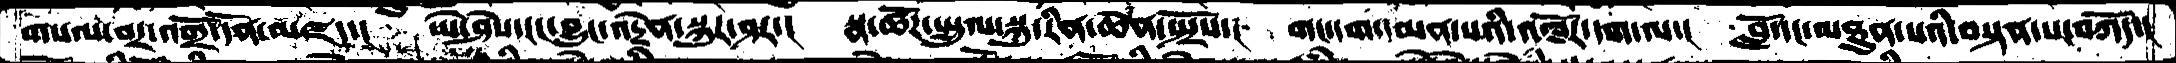གསལ་བར་འགྲོ་དོན་མཛད་།  ཡེ་ཤེས་རང་བྱུང་འདྲེན་སྐུར་ཤར་།  སྣ་ཚོཌ་སྤྲུལ་སྐུ་རིན་ཆེན་སྤྲོས་། གང་དག་དམན་པའི་འཁོར་དག་ལ་།  བློ་དང་མཐུན་པའི་བསྟན་པ་བཀོད་།
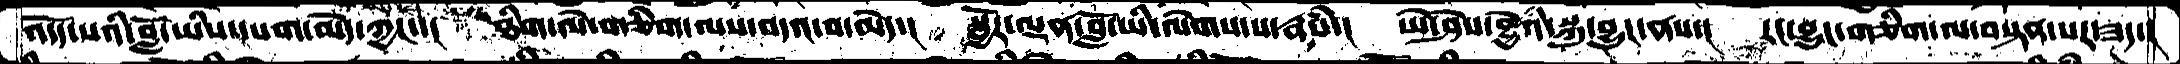འདོད་པའི་བློ་ཡིས་དཔག་མེད་ཀྱང་།   ཐིག་ལེ་གཅིག་ལས་བདའ་བ་མེད་།  སྦྱོར་ལྡན་བློ་ཡི་ལེགས་པ་རྣཾས་།   ཡེ་ཤེས་ཐྱེའི་སྐུ་བྱུང་ནས་།  རང་བྱུང་གཅིག་ལ་བསྟན་པར་ཟད་།
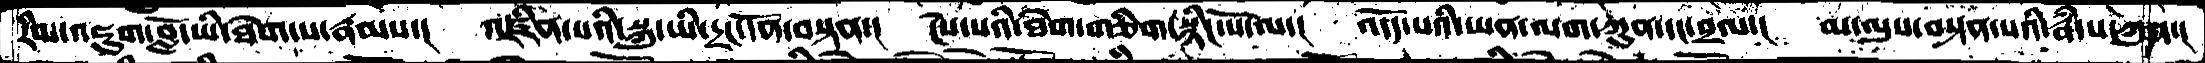རིམ་འཇུག་བློ་ཡི་ཐེག་པ་རྣམས་།   འཛིན་པའི་སྐུ་ཡི་དྲང་དོན་བསྟན་།  ངེས་པའི་ཐེག་གཅིག་སྙིང་པོ་ལ་།  འདོད་པའི་ཡན་ལག་ཀུན་དང་བྲལ་།  མ་ལུས་བསྟན་པའི་རྣཾ་པ་ཀུན་།
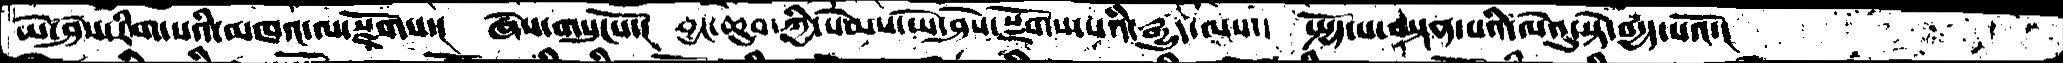ཡེ་ཤེས་རིག་པའི་མཁའ་ལ་སྫོགས་།  ཞེས་གསུངསོ་།  བྱང་ཆུབ་ཀྱི་སེམས་ཡེ་ཤེས་སྫོགས་པའི་རྒྱུད་ལས་།  སྤྱོད་པ་བསྟན་པའི་ལེའུ་སྟེ་བདྱད་པའོ་།
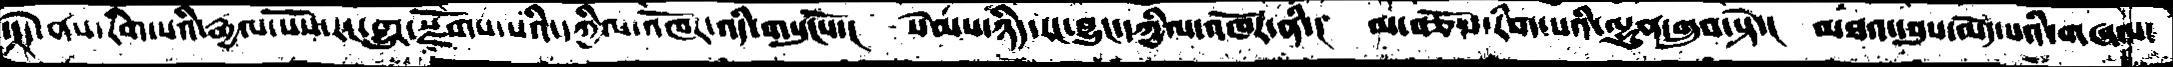་།དེ་ནས་རིག་པའི་རྒྱལ་པོས་རང་བྱུང་སྫོགས་པའི་དཀྱིལ་འཁོར་འདི་གསུངསོ་།   སེམས་ཉིད་རང་བྱུང་དཀྱིལ་འཁོར་ནི་།  མ་བཅོས་རིག་པའི་ལྷུན་གྲུབ་སྟེ་།   མཐའ་དབུས་མེད་པའི་གཞལ་
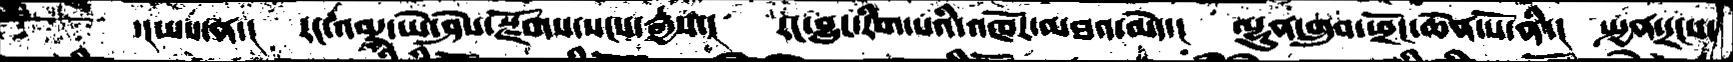་།ཡས་ན་།   རང་འབར་ཡེ་ཤེས་སྫོགས་སངས་རྒྱས་།  རང་བྱུང་རིག་པའི་འཁོར་མཐའ་མེད་།  ལྷུན་གྲུབ་ཕྲོང་ཆེན་པོ་ནི་།  སྤྱན་དྲངས་
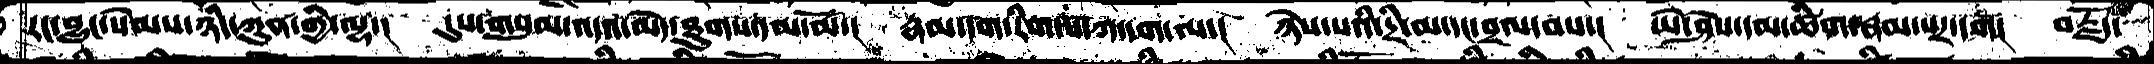རང་བྱུང་སེམས་ཉིད་ཀུན་གྱི་ལྷ་།  དུས་གསུམ་འདའ་མེད་ཐུགས་དམ་མོ་།   རྣམ་དག་རིག་པ་ཀ་དག་ལ་།  ཞེས་པའི་དྲི་མ་དང་བྲལ་བས་།  ཡེ་ཤེས་དམ་ཚིག་རྣམ་པར་དག།  བརྗོད་
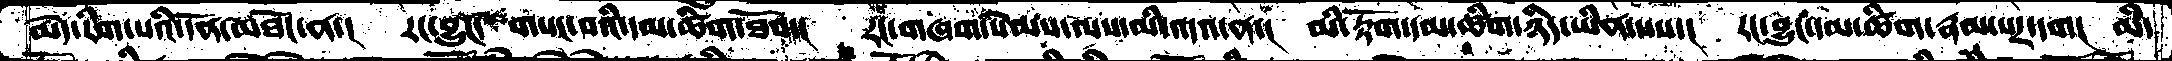མེད་རིག་པའི་དོན་མཐོང་ན་།   རང་བྱུང་གསང་བའི་དམ་ཚིག་ཐོབ་།  རང་གཞག་སེམས་ལས་མི་འདའ་ན་།  མི་རྟོག་དམ་ཚིག་ཉིད་ཡིན་པས་།  རང་བྱུང་དམ་ཚིག་རྣམ་པར་དག།  མི་
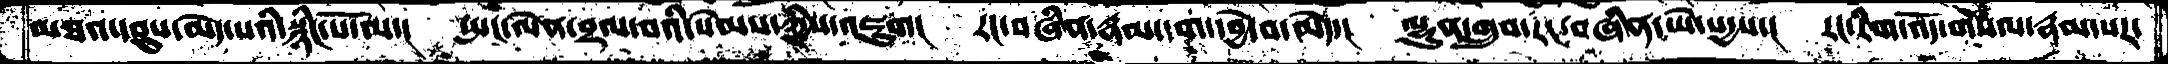མཐའ་དབུས་མེད་པའི་སྙིང་པོ་ལ་།  སྤང་ལེན་བྲལ་བའི་སེམས་ཀྱིས་འཇུག།  རང་བཞིན་རྣམ་དག་དབྱེ་བ་མེད་།  ལྷུན་གྲུབ་རང་བཞིན་ཡེ་སདྱས་།  རང་རིག་འོད་གསལ་རྣམ་པར་
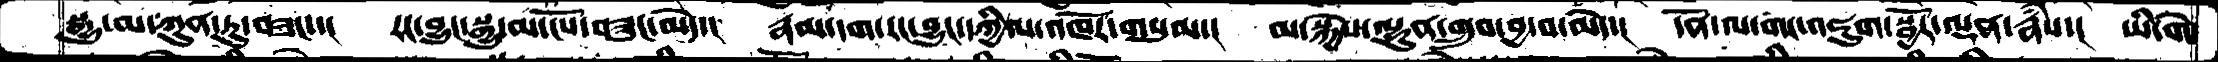སྒྱུ་མ་ཀུན་ཏུ་བཟང་།  རང་བྱུང་སྒྱུ་མ་ངོས་བཟུང་མེད་།  རྣམ་དག་རང་བྱུང་དཀྱིལ་འཁོར་གསུམ་།  མ་སྐྱེས་ལྷུན་གྲུབ་བྱ་བ་མེད་།  དོན་ལ་གང་འཇུག་སྦྱོར་ལྡན་རྣཾས་།  ཡི་གེ
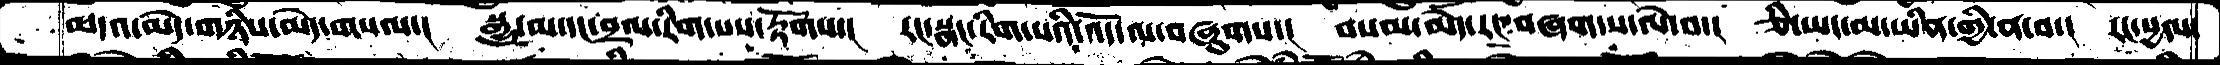མདའ་མེད་གཉིས་མེད་གསལ་།  སྒྱུ་མ་དང་བྲལ་རིག་པས་རྟོགས་།  རང་སྣང་རིག་པའི་འོད་ལ་བཞུགས་།  བསམ་མེད་རང་བཞག་ས་ལེ་བ་།  ཅི་ཡང་མ་ཡིན་གྱི་ན་བ་། རང་སྱལ་
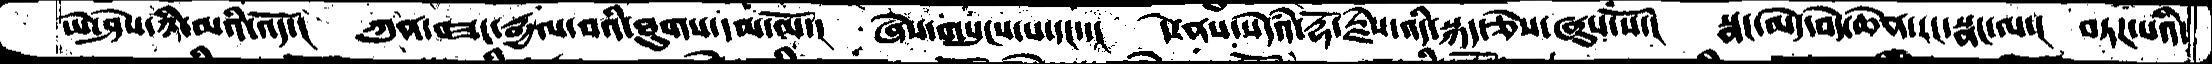ཡེ་ཤེས་ཉི་མའི་འོད་།  ཀུན་བཟང་རྒྱལ་བའི་ཐུགས་དམ་མོ་།  ཞེས་གསུངས་པ་དང་་།  དེ་ནས་སེཾའ་རྡོ་རྗོས་འདི་སྐད་ཅེས་ཞུས་སོ་།  སྣང་མེད་བདེ་ཆེན་རང་སྣང་ལ་།  བཏཌ་པའི་
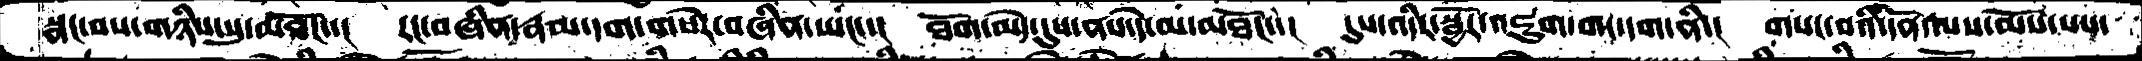སྣང་བས་གཉིས་སུ་མཐོང་།  རང་བཞིན་རྣམ་དག་གསེར་བཞིན་ཡང་་།  ཐོག་མེད་དུས་ནས་དེ་མ་མཐོང་་།  དུས་འདིར་སྦྱོར་འཇུག་གར་དག་ནི་།  གསང་བའི་དོན་ལས་མོས་པས་
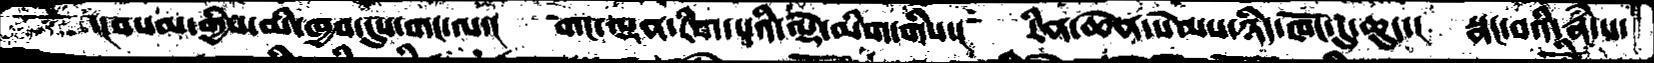་།བསམ་གྱིས་མི་ཁྱབ་དུས་གང་ལ་།   གང་ལྡན་རིག་པའི་ལྡེ་མིག་གིས་།  རིན་ཆེན་སེམས་ཉིད་ཁོང་དུ་ཆུད་།   སྣང་བའི་རྣཾ་པ་
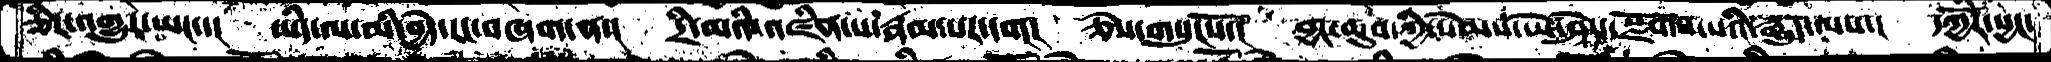ཅིར་འགྱུར་ཡང་།  ཡིད་ལ་མི་བྱེད་རང་བཞག་ན་།  དྲི་མའི་འཛིན་པ་རྣམ་པར་དག།  ཅེས་གསུངསོ་།  བྱང་ཆུབ་ཀྱི་སེམས་ཡེ་ཤེས་སྫོགས་པའི་རྒྱུད་ལས་།  དཀྱིརོ་སྱང་
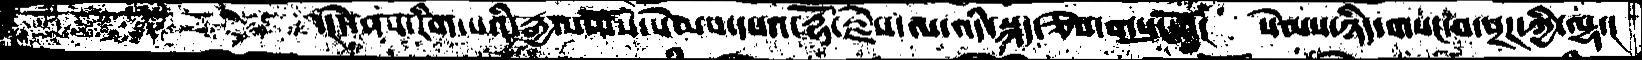་།དེ་ནས་རིག་པའི་རྒྱལ་པོས་སེམས་དཔའ་རྡོ་རྗེས་ལ་འདི་སྐད་ཅེས་གསུངསོ་།  སེམས་ཉིད་གསང་བ་སྔཌ་ཀྱི་ལྷ་།
